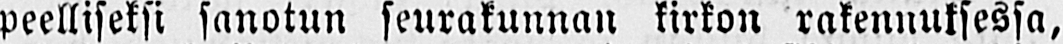peelliseksi sanotun seurakunnan kirkon rakennuksessa,
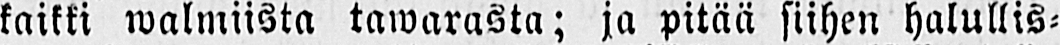kaikki walmiista tawarasta; ja pitää siihen halullis-
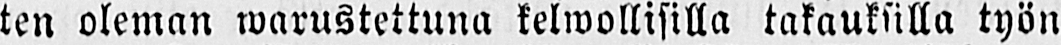ten oleman warustettuna kelwollisilla takauksilla työn
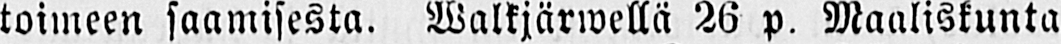toimeen saamisesta. Walkjärwellä 26 p. Maaliskunta
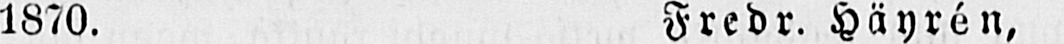1870. Fredr. Häyrėn,
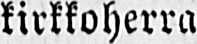kirkkoherra.
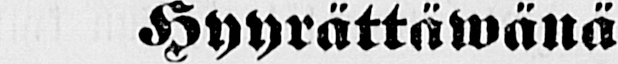Hyyrättäwänä
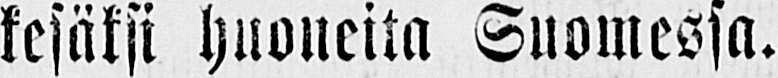kesäksi huoneita Suomessa.
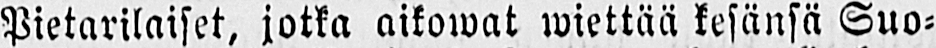Ne Pietarilaiset, jotka aikowat wiettää kesänsä Suo-
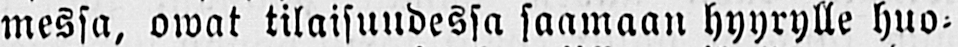messa, owat tilaisuudessa saamaan hyyrylle huo-
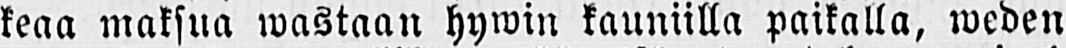keaa maksua wastaan hywin kauniilla paikalla, weden
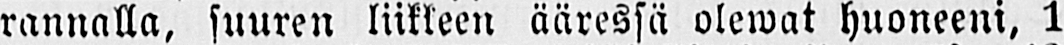rannalla, suuren liikkeen ääressä olewat huoneeni, 1
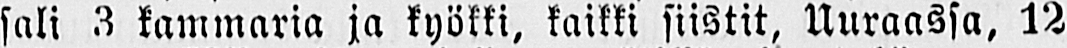sali 3 kammaria ja kyökki, kaikki siistit, Uuraassa, 12
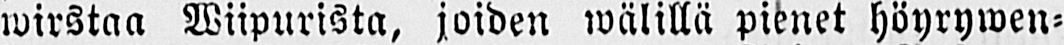wirstaa Wiipurista, joiden wälillä pienet höyrywen-
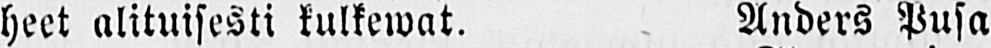heet alituisesti kulkewat. Anders Pusa
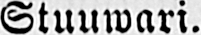Stuuwari.
